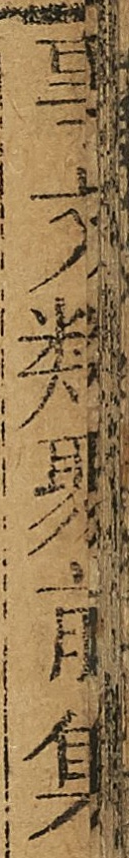事文類聚前集
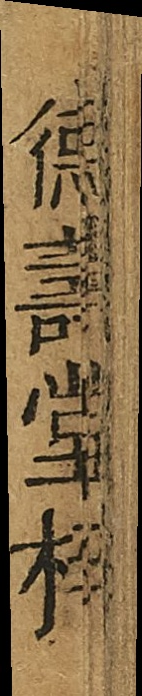德壽堂梓
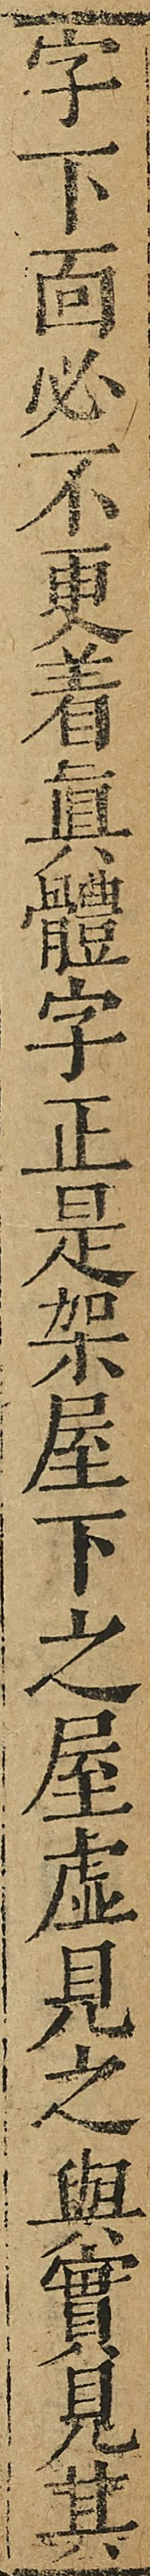字下靣必不更着真體字正是架屋下之屋虚见之舆實见其
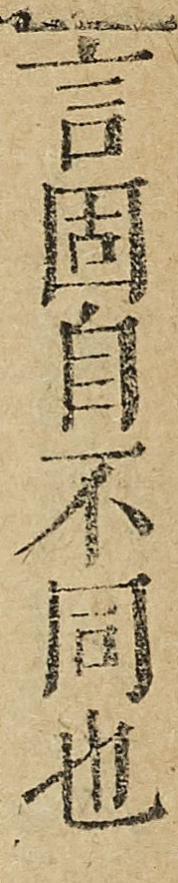言固自不同也
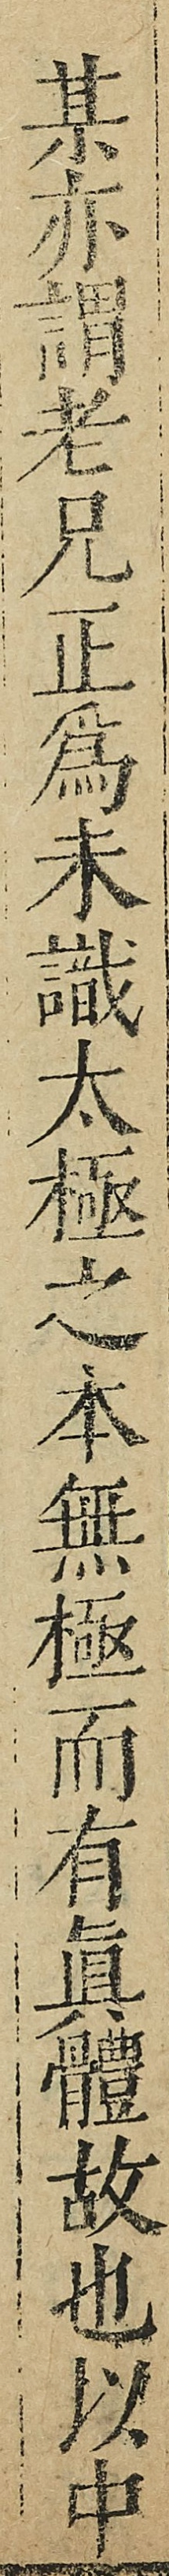某亦谓老兄正爲未識太極之本無極而有真體故也以中
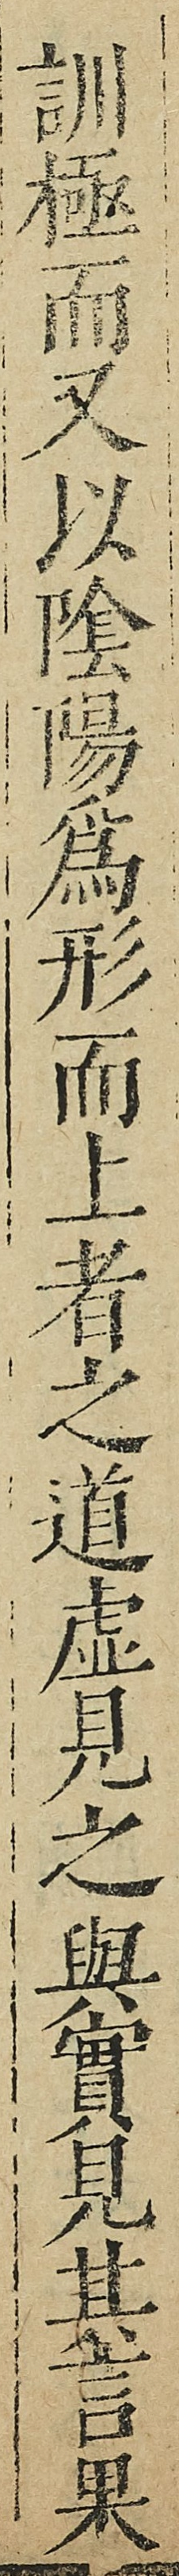訓極而又以陰陽爲形而上者之道虚見之與實見其言果
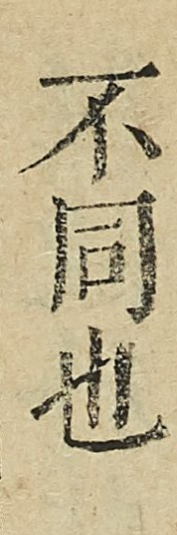不同也
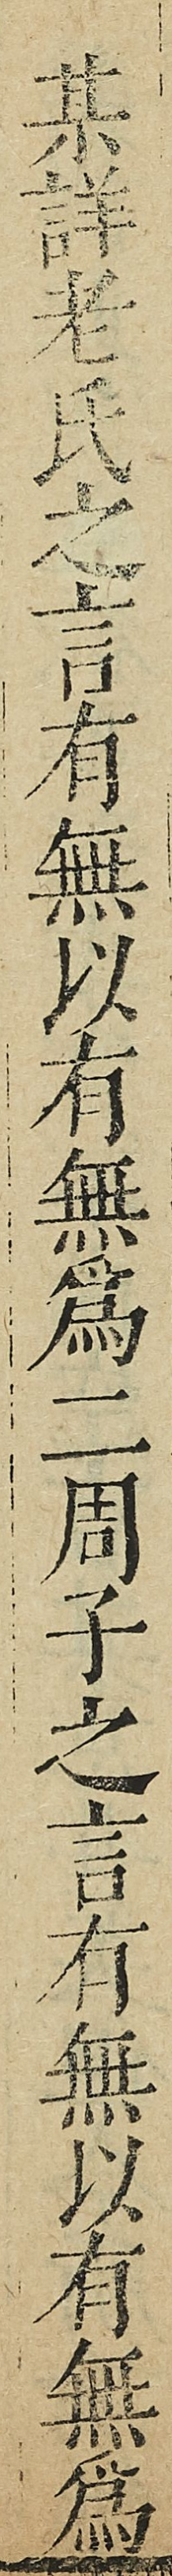其詳老氏之言有無以有無爲二周子之言有無以有無爲
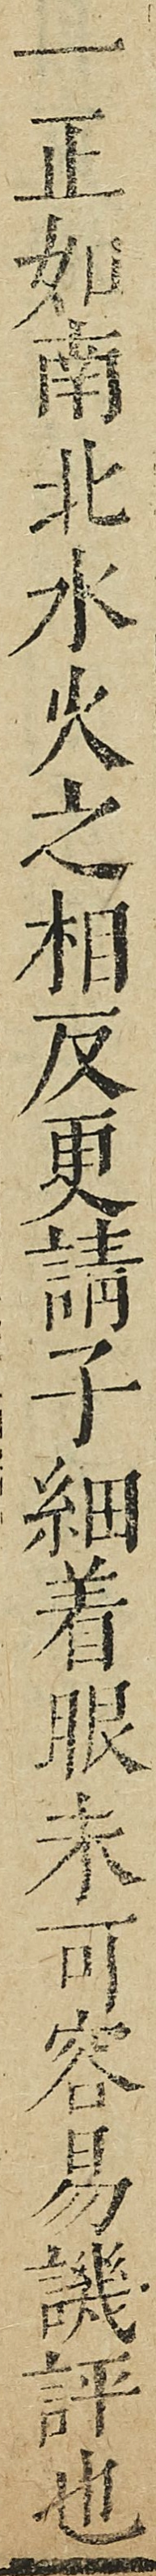一正如南北水火之相反更請子細着眼未可容易詳評也
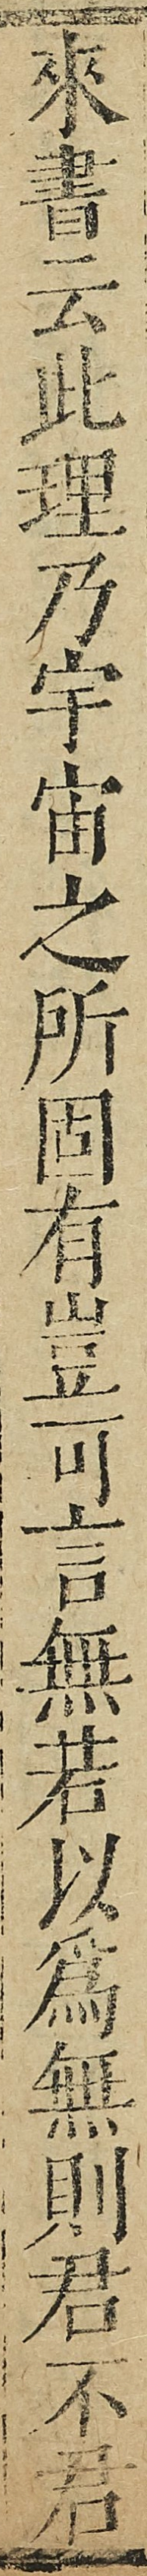來書云此理乃宇宙之所固有豈可言無若以爲無則君不君
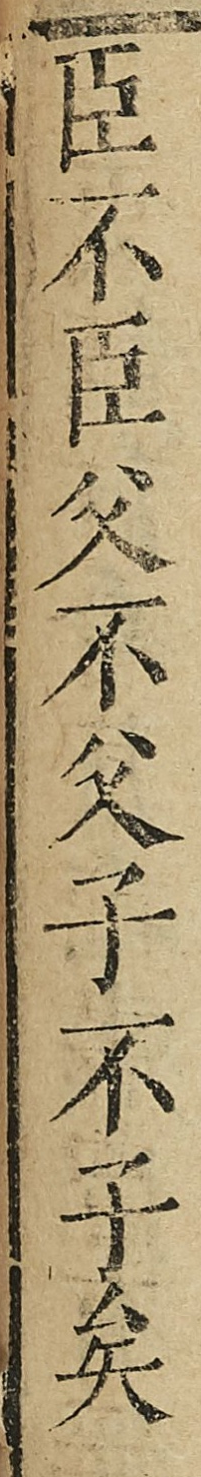臣不臣父不父子不子矣
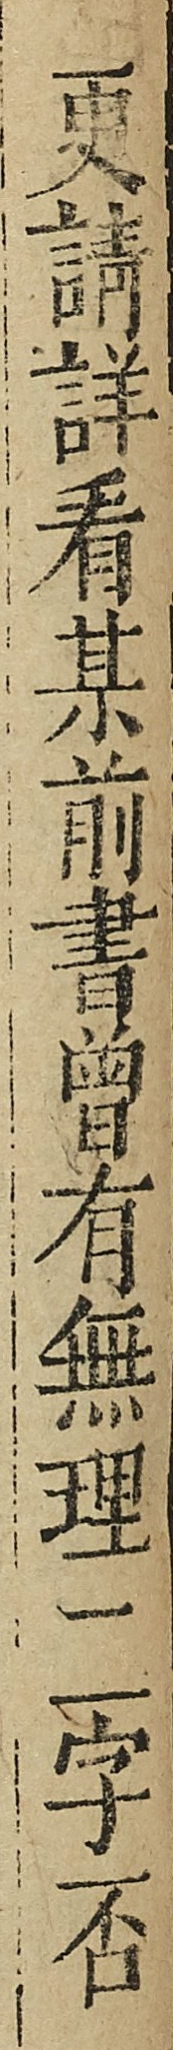更請詳看某前書曾有無理二字否
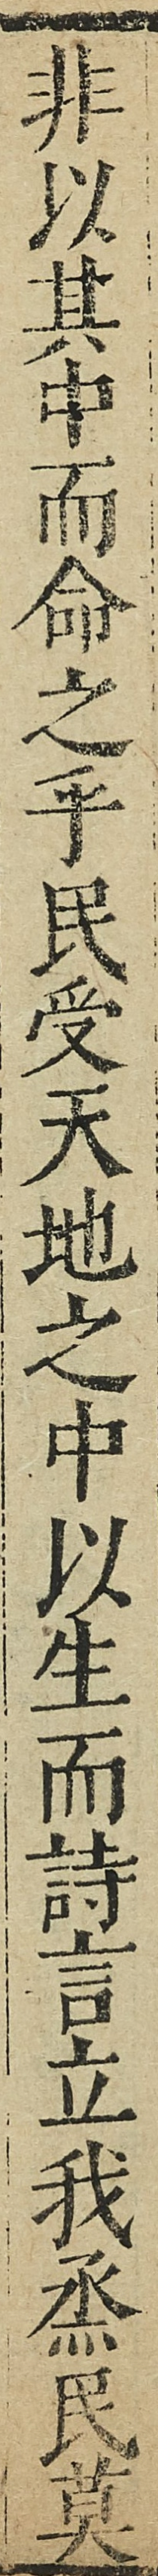非以其中而命之乎民受天地之中以生而詩言立我烝民莫
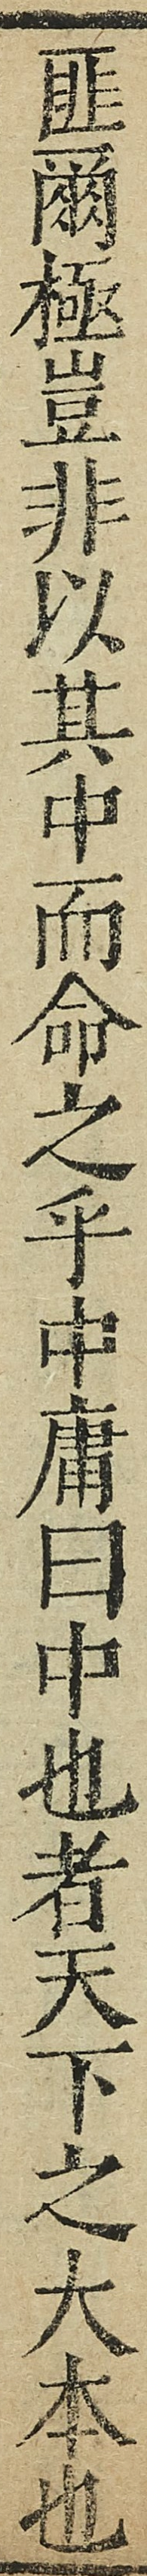匪爾極豈非以其中而命之乎中庸曰中也者天下之大本也
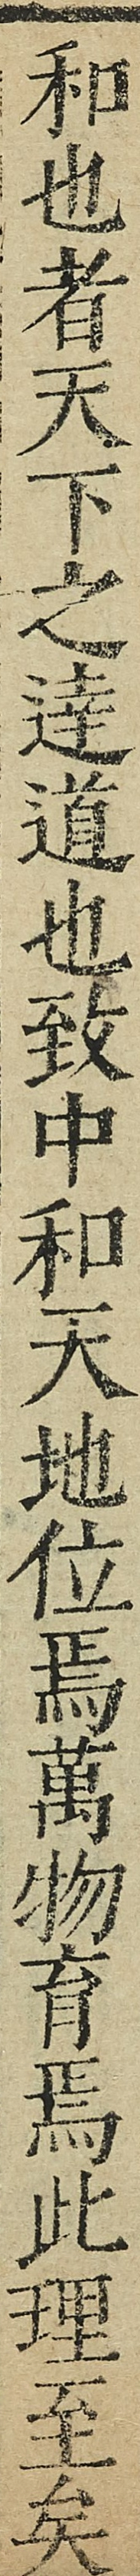和也者天下之達道也致中和天地位焉萬物育焉此理至矣
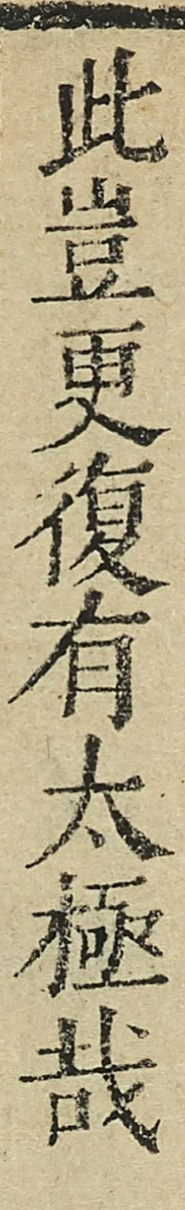此豈更復有太極哉
